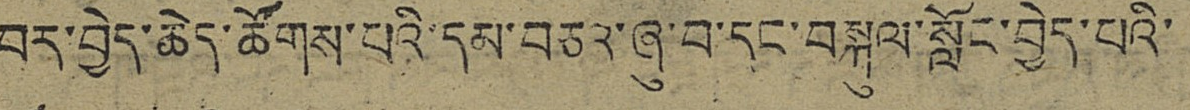བར་བྱེད་ཆེད་ཚོགས་པའི་དམ་བཅའ་ཞུ་བ་དང་བསྐུལ་སློང་བྱེད་པའི་
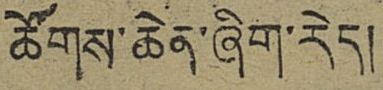ཚོགས་ཆེན་ཞིག་རེད།
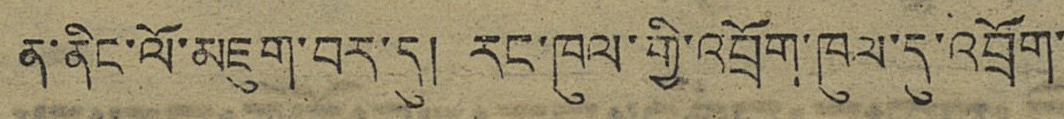ན་ནིང་ལོ་མཇུག་བར་དུ། རང་ཁུལ་གྱི་འབྲོག་ཁུལ་དུ་འབྲོག་
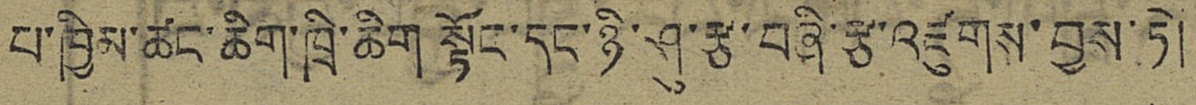པ་ཁྱིམ་ཚང་ཆིག་ཁྲི་ཆིག་སྟོང་དང་ཉི་ཤུ་རྩ་བཞི་རྩ་འཛུགས་བྱས་ཏེ།
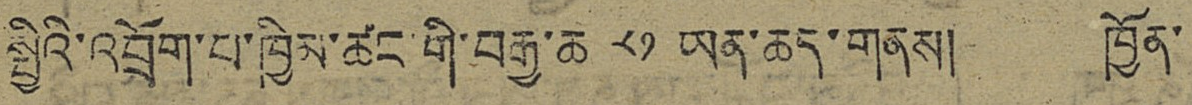སྤྱིའི་འབྲོག་པ་ཁྱིམ་ཚང་གི་བརྒྱ་ཆ ༨༡ ཡན་ཆད་གནས། ཁྱོན་
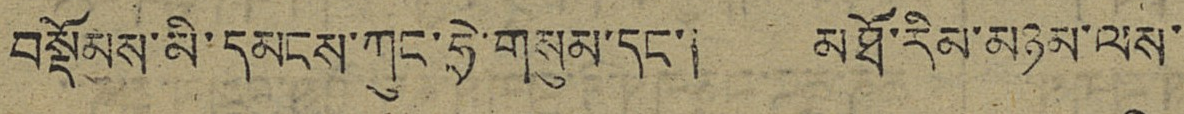བསྡོམས་མི་དམངས་ཀུང་ཧྲེ་གསུམ་དང་། མཐོ་རིམ་མཉམ་ལས་
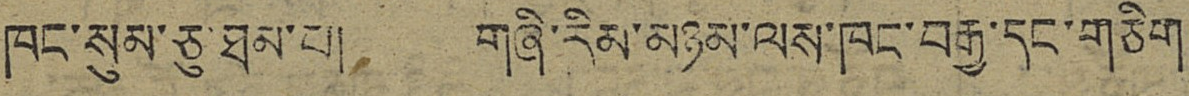ཁང་སུམ་ཅུ་ཐམ་པ། གཞི་རིམ་མཉམ་ལས་ཁང་བརྒྱ་དང་གཅིག
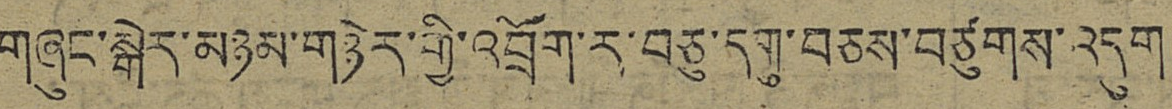གཞུང་སྒེར་མཉམ་གཉེར་གྱི་འབྲོག་ར་བཅུ་དགུ་བཅས་བཙུགས་འདུག
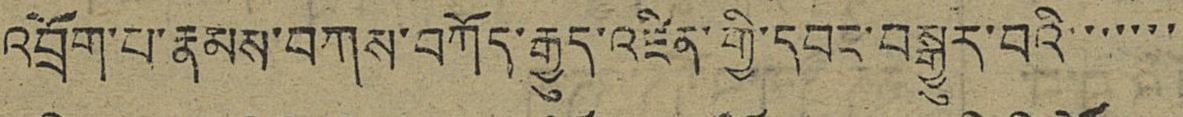འབྲོག་པ་རྣམས་བཀས་བཀོད་རྒྱུད་འཛིན་གྱི་དབང་བསྒྱུར་བའི་་་་་་་
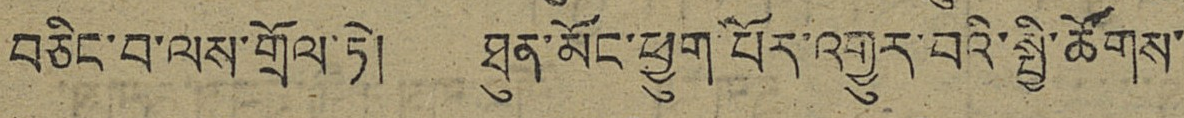བཅིང་བ་ལས་གྲོལ་ཏེ། ཐུན་མོང་ཕྱུག་པོར་འགྱུར་བའི་སྤྱི་ཚོགས་
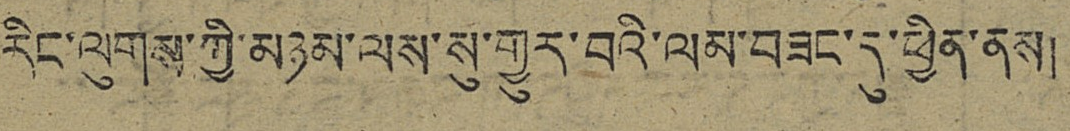རིང་ལུགས་ཀྱི་མཉམ་ལས་སུ་གྱུར་བའི་ལམ་བཟང་དུ་ཕྱིན་ནས།
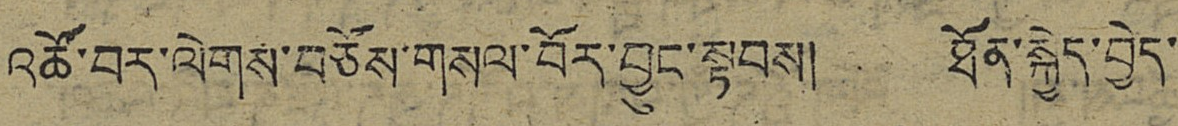འཚོ་བར་ལེགས་བཅོས་གསལ་བོར་བྱུང་སྟབས། ཐོན་སྐྱེད་བྱེད་
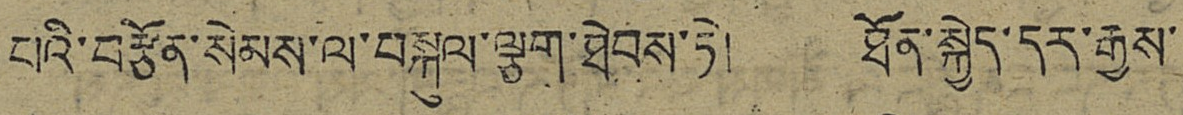པའི་བརྩོན་སེམས་ལ་བསྐུལ་ལྕག་ཐེབས་ཏེ། ཐོན་སྐྱེད་དར་རྒྱས་
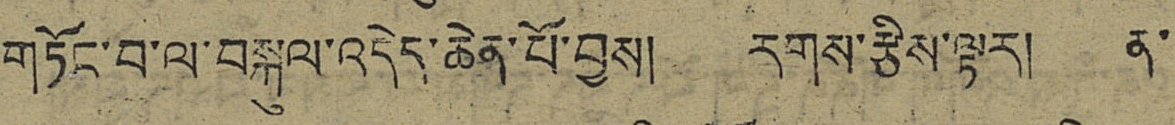གཏོང་བ་ལ་བསྐུལ་འདེད་ཆེན་པོ་བྱས། རགས་རྩིས་ལྟར། ན་
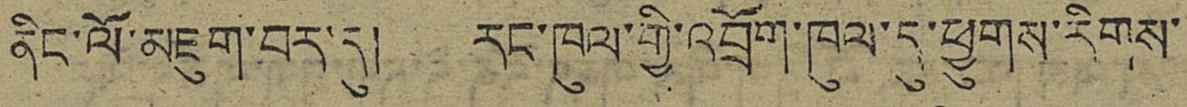ནིང་ལོ་མཇུག་བར་དུ། རང་ཁུལ་གྱི་འབྲོག་ཁུལ་དུ་ཕྱུགས་རིགས་
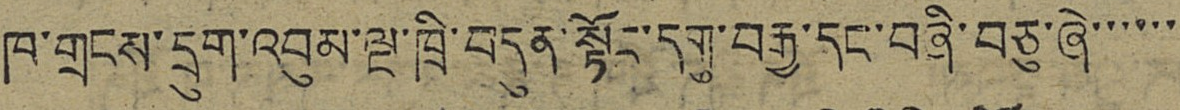ཁ་གྲངས་དྲུག་འབུམ་ལྔ་ཁྲི་བདུན་སྟོང་དགུ་བརྒྱ་དང་བཞི་བཅུ་ཞེ་་་་་་
